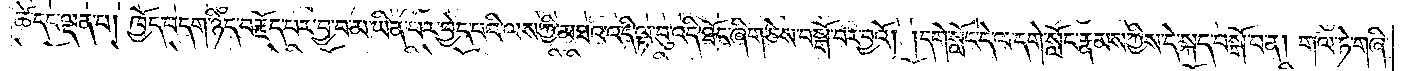ཚེ་དང་ལྡན་པ། ཁྱོད་བདག་ཉིད་བརྗོད་པར་བྱ་བ་མ་ཡིན་པར་བྱེད་པའི་ལས་ཀྱི་མཐའ་འདི་ལྟ་བུ་འདི་ཐོང་ཞིག་ཅེས་བསྒོ་བར་བྱའོ། །དགེ་སློང་དེ་ལ་དགེ་སློང་རྣམས་ཀྱིས་དེ་སྐད་བསྒོ་བ་ན། གལ་ཏེ་གཞི་
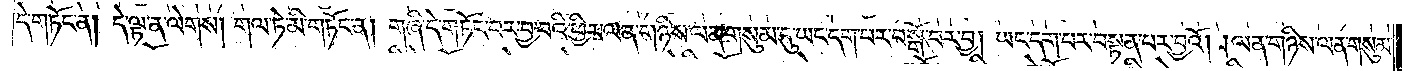དེ་གཏོང་ན། དེ་ལྟ་ན་ལེགས། གལ་ཏེ་མི་གཏོང་ན། གཞི་དེ་གཏོང་བར་བྱ་བའི་ཕྱིར་ལན་གཉིས་ལན་གསུམ་དུ་ཡང་དག་པར་བསྒོ་བར་བྱ། ཡང་དག་པར་བསྟན་པར་བྱའོ། །ལན་གཉིས་ལན་གསུམ་
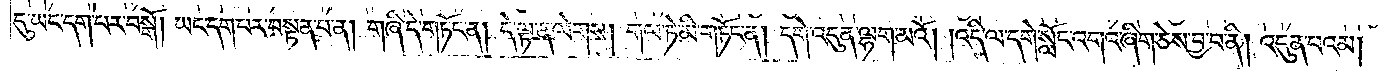དུ་ཡང་དག་པར་བསྒོ། ཡང་དག་པར་བསྟན་པ་ན། གཞི་དེ་གཏོང་ན། དེ་ལྟ་ན་ལེགས། གལ་ཏེ་མི་གཏོང་ན། དགེ་འདུན་ལྷག་མའོ། །འདི་ལ་དགེ་སློང་འགའ་ཞིག་ཅེས་བྱ་བ་ནི། འདུན་པའམ།
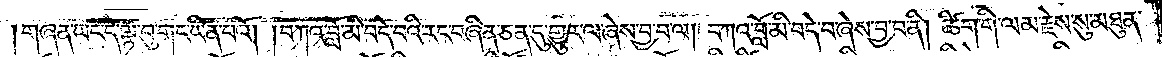གཞན་ཡང་དེ་ལྟ་བུ་གང་ཡིན་པའོ། །བཀའ་བློ་མི་བདེ་བའི་རང་བཞིན་ཅན་དུ་གྱུར་ལ་ཞེས་བྱ་བ་ལ། བཀའ་བློ་མི་བདེ་བ་ཞེས་བྱ་བ་ནི། ཚིག་གི་ལམ་རྗེས་སུ་མཐུན་
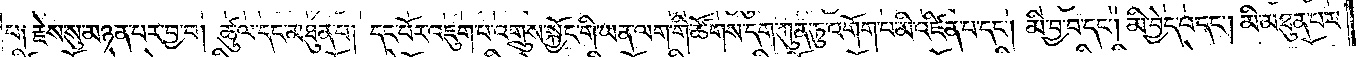པ༑ རྗེས་སུ་མཉན་པར་བྱ་བ། ཚུལ་དང་མཐུན་པ། དང་པོར་འཇུག་པ་འགྲུས་སྐྱོང་གི་ཡན་ལག་གི་ཚོགས་དག་ཀུན་ཏུ་འགོག་པ་མི་འཛིན་པ་དང༌། མི་བྱ་བ་དང༌། མི་བྱེད་པ་དང༌། མི་མཐུན་པར་
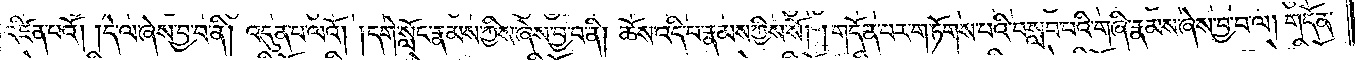འཛིན་པའོ། །དེ་ལ་ཞེས་བྱ་བ་ནི། འདུན་པ་ལའོ། ། དགེ་སློང་རྣམས་ཀྱིས་ཞེས་བྱ་བ་ནི། ཆོས་འདི་པ་རྣམས་ཀྱིས་སོ། ། གདོན་པར་གཏོགས་པའི་བསླབ་པའི་གཞི་རྣམས་ཞེས་བྱ་བ་ལ། གདོན་
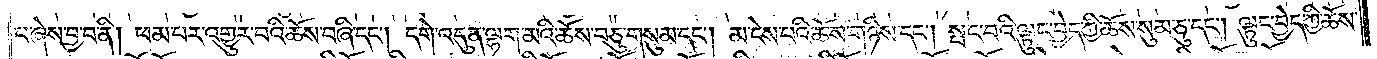པ་ཞེས་བྱ་བ་ནི། ཕམ་པར་འགྱུར་བའི་ཆོས་བཞི་དང༌། དགེ་འདུན་ལྷག་མའི་ཆོས་བཅུ་གསུམ་དང༌། མ་ངེས་པའི་ཆོས་གཉིས་དང༌། སྤང་བའི་ལྟུང་བྱེད་ཀྱི་ཆོས་སུམ་ཅུ་དང༌། ལྟུང་བྱེད་ཀྱི་ཆོས་
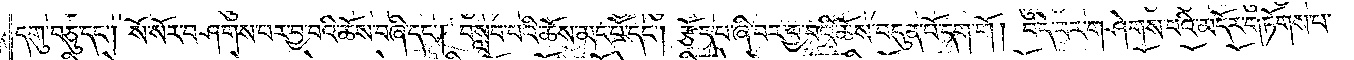དགུ་བཅུ་དང༌། སོ་སོར་བཤགས་པར་བྱ་བའི་ཆོས་བཞི་དང༌། བསླབ་པའི་ཆོས་མང་པོ་དང༌། རྩོད་པ་ཞི་བར་བྱ་བའི་ཆོས་བདུན་པོ་དག་གོ། བདེ་བར་གཤེགས་པའི་མདོར་གཏོགས་པ་
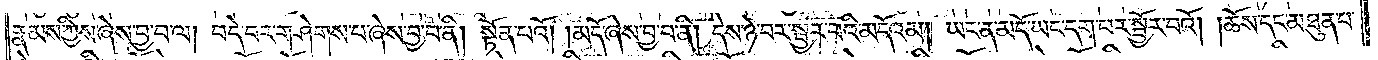རྣམས་ཀྱིས་ཞེས་བྱ་བ་ལ། བདེ་བར་གཤེགས་པ་ཞེས་བྱ་བ་ནི། སྟོན་པའོ། །མདོ་ཞེས་བྱ་བ་ནི། དེས་ཉེ་བར་སྦྱར་བའི་མདོའམ། ཡང་ན་མདོ་ཡང་དག་པར་སྦྱོར་བའོ། །ཆོས་དང་མཐུན་པ་
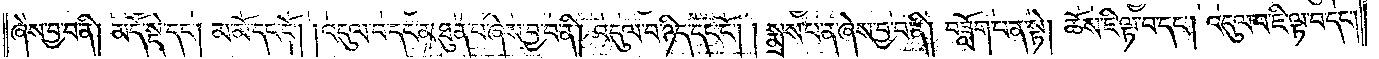ཞེས་བྱ་བ་ནི། མདོ་སྡེ་དང༌། མ་མོ་དང་ངོ༌། །འདུལ་བ་དང་མཐུན་པ་ཞེས་བྱ་བ་ནི། འདུལ་བ་ཉིད་དང་ངོ༌། །སྨྲས་པ་ན་ཞེས་བྱ་བ་ནི། བཟློག་པ་ན་སྟེ། ཆོས་ཇི་ལྟ་བ་དང༌། འདུལ་བ་ཇི་ལྟ་བ་དང༌།
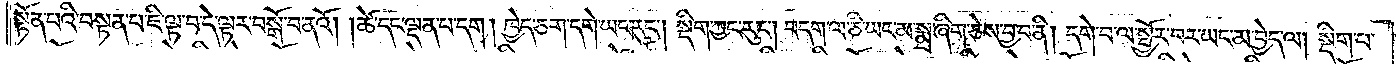སྟོན་པའི་བསྟན་པ་ཇི་ལྟ་བ་དེ་ལྟར་བསྒོ་བ་ནའོ། །ཚེ་དང་ལྡན་པ་དག། ཁྱེད་ཅག་དགེ་ཡང་རུང༌། སྡིག་ཀྱང་རུང༌། བདག་ལ་ཅི་ཡང་མ་སྨྲ་ཞིག་ཅེས་བྱ་བ་ནི། དགེ་བ་ལ་སྦྱོར་བར་ཡང་མ་བྱེད་ལ། སྡིག་པ་
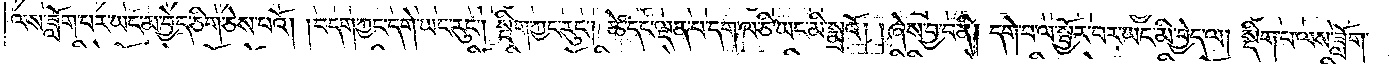ལས་ཟློག་པར་ཡང་མ་བྱེད་ཅིག་ཅེས་པའོ། །བདག་ཀྱང་དགེ་ཡང་རུང༌། སྡིག་ཀྱང་རུང༌། ཚེ་དང་ལྡན་པ་དག་ལ་ཅི་ཡང་མི་སྨྲའོ། །ཞེས་བྱ་བ་ནི། དགེ་བ་ལ་སྦྱོར་བར་ཡང་མི་བྱེད་ལ། སྡིག་པ་ལས་ཟློག་
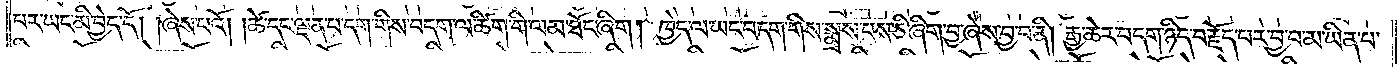པར་ཡང་མི་བྱེད་དོ། །ཞེས་པའོ། །ཚེ་དང་ལྡན་པ་དག་གིས་བདག་ལ་ཚིག་གི་ལམ་ཐོང་ཞིག། ཁྱེད་ལ་ཡང་བདག་གིས་སྨྲས་པས་ཅི་ཞིག་བྱ་ཞེས་བྱ་བ་ནི། རྒྱ་ཆེར་བདག་ཉིད་བརྗོད་པར་བྱ་བ་མ་ཡིན་པ་
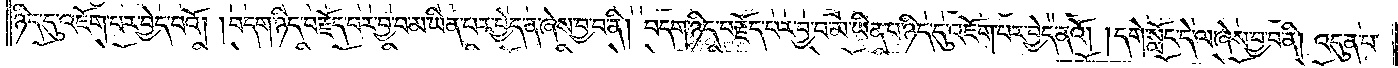ཉིད་དུ་འཇོག་པར་བྱེད་པའོ། །བདག་ཉིད་བརྗོད་པར་བྱ་བ་མ་ཡིན་པར་བྱེད་ན་ཞེས་བྱ་བ་ནི། བདག་ཉིད་བརྗོད་པར་བྱ་བ་མ་ཡིན་པ་ཉིད་དུ་འཇོག་པར་བྱེད་ནའོ། །དགེ་སློང་དེ་ལ་ཞེས་བྱ་བ་ནི། འདུན་པ་
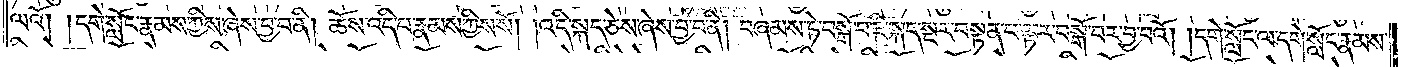ལའོ། །དགེ་སློང་རྣམས་ཀྱིས་ཞེས་བྱ་བ་ནི། ཆོས་འདི་པ་རྣམས་ཀྱིས་སོ། །འདི་སྐད་ཅེས་ཞེས་བྱ་བ་ནི། བཞམས་ཏེ་བསྒོ་བ་ཇི་སྐད་སྔར་བསྟན་པ་ལྟར་བསྒོ་བར་བྱ་བའོ། །དགེ་སློང་ལ་དགེ་སློང་རྣམས་
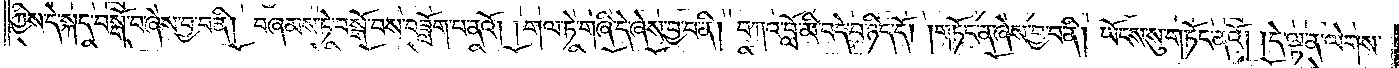ཀྱིས་དེ་སྐད་བསྒོ་བ་ཞེས་བྱ་བ་ནི། བཞམས་ཏེ་བསྒོ་བས་བཟློག་པ་ནའོ། །གལ་ཏེ་གཞི་དེ་ཞེས་བྱ་བ་ནི། བཀའ་བློ་མི་བདེ་བ་ཉིད་དོ། །གཏོང་ན་ཞེས་བྱ་བ་ནི། ཡོངས་སུ་གཏོང་ནའོ། །དེ་ལྟ་ན་ལེགས་
